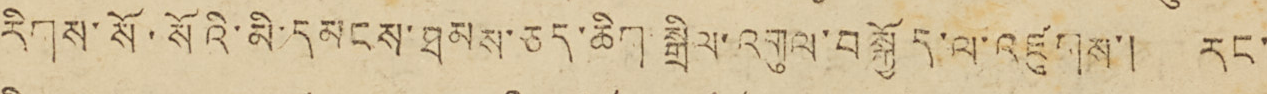རིགས་སོ་སོའི་མི་དམངས་ཐམས་ཅད་ཆིག་སྒྲིལ་འགུལ་བསྐྱོད་ལ་འཛུགས་། རང་
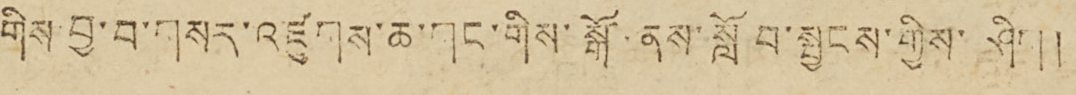གིས་བྱ་བ་གསར་འཛུགས་ཆ་གང་གིས་སྒོ་ནས་སློབ་སྦྱངས་གྱིས་ཤིག།།
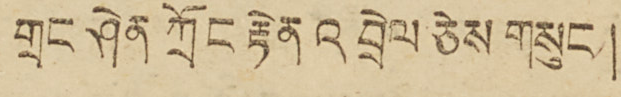གྲངས ཤེན ཀྲོང རྟེན འབྲེལ ཅེས གསུང །
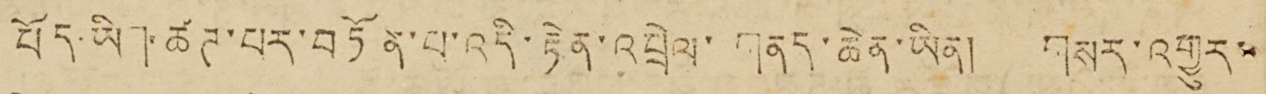བོད་ཡིག་ཚཊ་པར་བཏོན་པ་འདི་རྟེན་འབྲེལ་ གནད་ཆེན་ཡིན། གསར་འགྱུར་
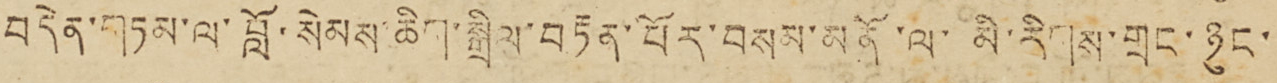བདེན་གཏམ་ལ་བློ་སེམས་ཆིག་སྐྲིལ་བརྟན་པོར་བསམ་མནོ་ལ་མི་རིགས་གྲངས་ཉུང་
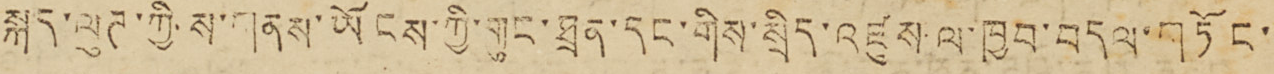སྐད་ལུཊ་ཀྱི་ས་གནས་ཡོངས་ཀྱི་གུང་ཐྲན་དང་གིས་སྲིད་འཛུས་ལ་ཁྱབ་བདལ་གཏོང་
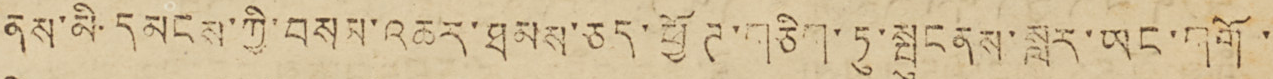ནས་མི་དམངས་ཀྱི་བསམ་འཆར་ཐམས་ཅད་ཕྱོཊ་གཅིག་ཏུ་སྤུངནས་སླར་ཡང་གགོ་
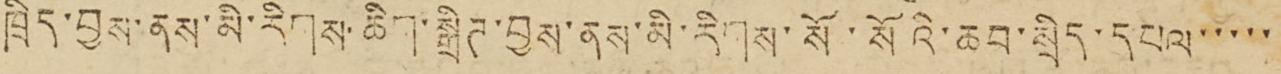ཁྲིད་བྱས་ནས་མི་རིགས་ཆིག་སྒྲིཊ་བྱས་ནས་མི་རིགས་སོ་སོའི་ཆབ་སྲིད་དཔལ་་་་་
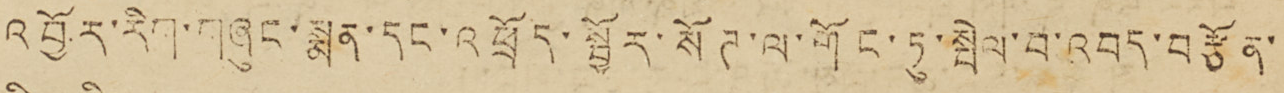འབྱོར་རིག་གཞུང་སྨན་དང་འཕྲོད་སྦྱོར་སོཊ་ལ་གོང་ཏུ་སྤེལ་བ་འབད་བརྩོན་
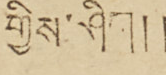གྱིས་ཤིག༎
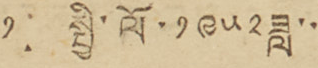༡་ སྤྱི་ལོ་༡༩༥༢ཟླ་་
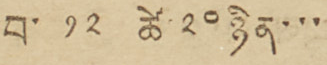བ་ ༡༢ ཚེ ༢༠ ཉིན་་་
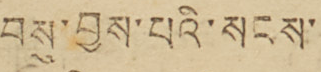བསུ་བྱས་པའི་སངས་
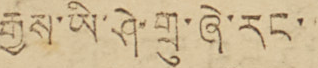རྒྱས་ཡི་ཤེ་གྲུ་ཞེ་རང་
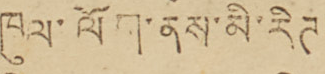ཁུལ་ལོག་ནས་མི་རིཊ་
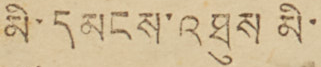མི་དམངས་འཐུས་མི་
